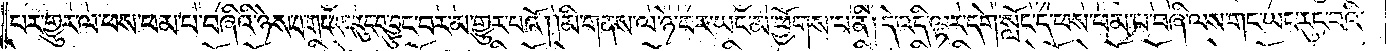པར་གྱུར་ལ་ཕས་ཕམ་པ་བཞིའི་ཉེས་པ་གང་ཡང་རུང་བ་བྱུང་བར་མ་གྱུར་པའོ། །མི་གནས་ལ་ཉེ་བར་ཡང་མ་ཕྱོགས་པ་ནི། དེ་འདི་ལྟར་དགེ་སློང་དེ་ཕས་ཕམ་པ་བཞི་ལས་གང་ཡང་རུང་བའི་
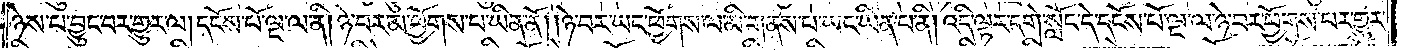ཉེས་པ་བྱུང་བར་གྱུར་ལ། དངོས་པོ་ལྔ་ལ་ནི། ཉེ་བར་མ་ཕྱོགས་པ་ཡིན་ནོ། །ཉེ་བར་ཡང་ཕྱོགས་ལ་མི་གནས་པ་ཡང་ཡིན་པ་ནི། འདི་ལྟར་དགེ་སློང་དེ་དངོས་པོ་ལྔ་ལ་ཉེ་བར་ཕྱོགས་པར་གྱུར་
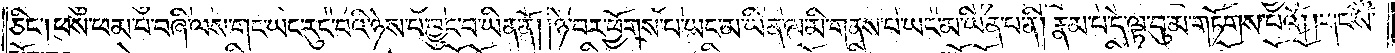ཅིང༌། ཕས་ཕམ་པ་བཞི་ལས་གང་ཡང་རུང་བའི་ཉེས་པ་བྱུང་བ་ཡིན་ནོ། །ཉེ་བར་ཕྱོགས་པ་ཡང་མ་ཡིན་ལ་མི་གནས་པ་ཡང་མ་ཡིན་པ་ནི། རྣམ་པ་དེ་ལྟ་བུ་མ་གཏོགས་པའོ། །གང་སོ་
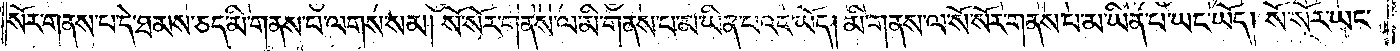སོར་གནས་པ་དེ་ཐམས་ཅད་མི་གནས་པ་ལགས་སམ། སོ་སོར་གནས་པ་ལ་མི་གནས་པ་མ་ཡིན་པའང་ཡོད། མི་གནས་ལ་སོ་སོར་གནས་པ་མ་ཡིན་པ་ཡང་ཡོད། སོ་སོར་ཡང་
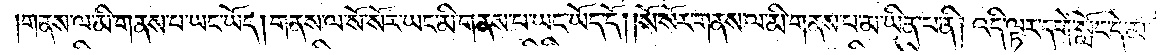གནས་ལ་མི་གནས་པ་ཡང་ཡོད། གནས་ལ་སོ་སོར་ཡང་མི་གནས་པ་ཡང་ཡོད་དོ། །སོ་སོར་གནས་ལ་མི་གནས་པ་མ་ཡིན་པ་ནི། འདི་ལྟར་དགེ་སློང་དེ་མ་
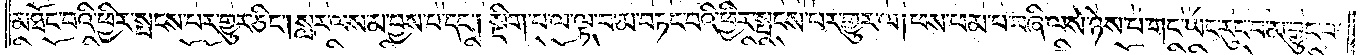མཐོང་བའི་ཕྱིར་སྤངས་པར་གྱུར་ཅིང༌། །སླར་ལས་མ་བྱས་པ་དང༌། སྡིག་པ་ལ་ལྟ་བ་མ་བཏང་བའི་ཕྱིར་སྤངས་པར་གྱུར་ལ། ཕས་ཕམ་པ་བཞི་ལས་ཉེས་པ་གང་ཡང་རུང་བ་མ་བྱུང་བ་
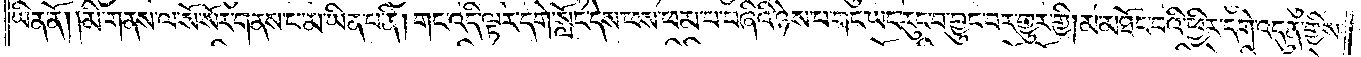ཡིན་ནོ། །མི་གནས་ལ་སོ་སོར་གནས་པ་མ་ཡིན་པ་ནི། གང་འདི་ལྟར་དགེ་སློང་དེས་ཕས་ཕམ་པ་བཞིའི་ཉེས་པ་གང་ཡང་རུང་བ་བྱུང་བར་གྱུར་གྱི། མ་མཐོང་བའི་ཕྱིར་དགེ་འདུན་གྱིས་
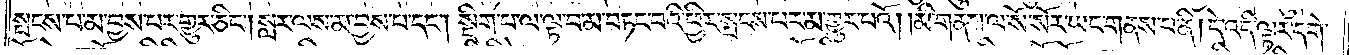སྤངས་པ་མ་བྱས་པར་གྱུར་ཅིང༌། སླར་ལས་མ་བྱས་པ་དང༌། སྡིག་པ་ལ་ལྟ་བ་མ་བཏང་བའི་ཕྱིར་སྤངས་པར་མ་གྱུར་བའོ། །མི་གནས་ལ་སོ་སོར་ཡང་གནས་པ་ནི། དེ་འདི་ལྟར་དགེ་
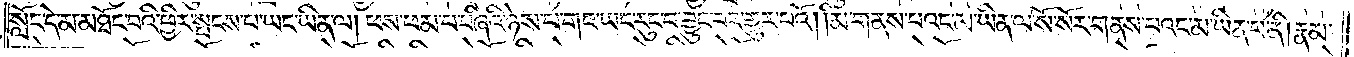སློང་དེ་མ་མཐོང་བའི་ཕྱིར་སྤངས་པ་ཡང་ཡིན་ལ། ཕས་ཕམ་པ་བཞིའི་ཉེས་པ་གང་ཡང་རུང་བ་བྱུང་བར་གྱུར་བའོ། །མི་གནས་པའང་མ་ཡིན་ལ་སོ་སོར་གནས་པའང་མ་ཡིན་པ་ནི། རྣམ་
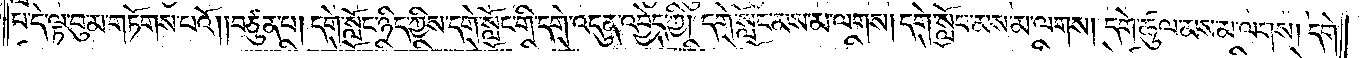པ་དེ་ལྟ་བུ་མ་གཏོགས་པའོ། བཙུན་པ། དགེ་སློང་ཉིད་ཀྱིས་དགེ་སློང་གི་དགེ་འདུན་འབྱེད་ཀྱི། དགེ་སློང་མས་མ་ལགས། དགེ་སློབ་མས་མ་ལགས། དགེ་ཚུལ་མས་མ་ལགས། དགེ་
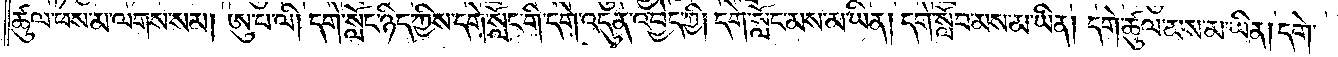ཚུལ་པས་མ་ལགས་སམ། ཨུ་པ་ལི། དགེ་སློང་ཉིད་ཀྱིས་དགེ་སློང་གི་དགེ་འདུན་འབྱེད་ཀྱི། དགེ་སློང་མས་མ་ཡིན། དགེ་སློབ་མས་མ་ཡིན། དགེ་ཚུལ་མས་མ་ཡིན། དགེ་
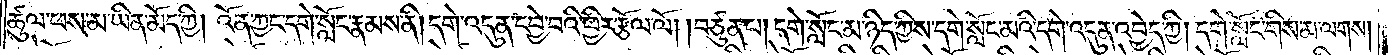ཚུལ་ཕས་མ་ཡིན་མོད་ཀྱི། འོན་ཀྱང་དགེ་སློང་རྣམས་ནི། དགེ་འདུན་དབྱེ་བའི་ཕྱིར་རྩོལ་ལོ། །བཙུན་པ། དགེ་སློང་མ་ཉིད་ཀྱིས་དགེ་སློང་མའི་དགེ་འདུན་འབྱེད་ཀྱི། དགེ་སློང་གིས་མ་ལགས།
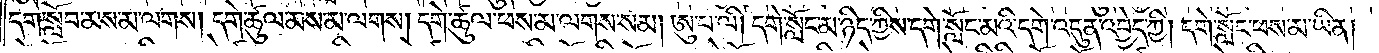དགེ་སློབ་མས་མ་ལགས། དགེ་ཚུལ་མས་མ་ལགས། དགེ་ཚུལ་ཕས་མ་ལགས་སམ། ཨུ་པ་ལི། དགེ་སློང་མ་ཉིད་ཀྱིས་དགེ་སློང་མའི་དགེ་འདུན་འབྱེད་ཀྱི། དགེ་སློང་ཕས་མ་ཡིན།
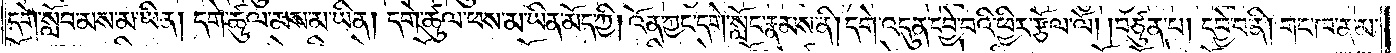དགེ་སློབ་མས་མ་ཡིན། དགེ་ཚུལ་མས་མ་ཡིན། དགེ་ཚུལ་ཕས་མ་ཡིན་མོད་ཀྱི། འོན་ཀྱང་དགེ་སློང་རྣམས་ནི། དགེ་འདུན་དབྱེ་བའི་ཕྱིར་རྩོལ་ལོ། །བཙུན་པ། དབྱེ་བ་ནི། གང་ཁ་ན་མ་
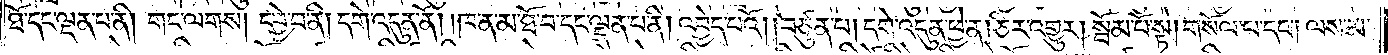ཐོ་དང་ལྡན་པ་ནི། གང་ལགས། དབྱེ་བ་ནི། དགེ་འདུན་ནོ། །ཁ་ན་མ་ཐོ་བ་དང་ལྡན་པ་ནི། འབྱེད་པའོ། །བཙུན་པ། དགེ་འདུན་ཕྱེ་ན། ཅིར་འགྱུར། སྦོམ་པོ་སྟེ། གསོལ་པ་དང༌། ལས་མ་
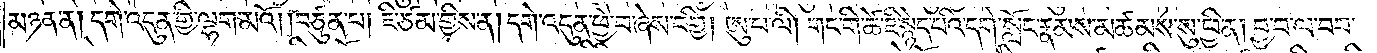མཉན་ན། དགེ་འདུན་གྱི་ལྷག་མའོ། །བཙུན་པ། ཇི་ཙམ་གྱིས་ན། དགེ་འདུན་ཕྱེ་བ་ཞེས་བགྱི། ཨུ་པ་ལི། གང་གི་ཚེ་ཇི་སྙེད་པའི་དགེ་སློང་རྣམས་མཚམས་སུ་བྱི་ན། བྱ་བ་ལ་བབ་
